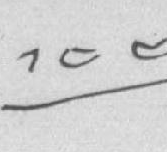༡༤༤
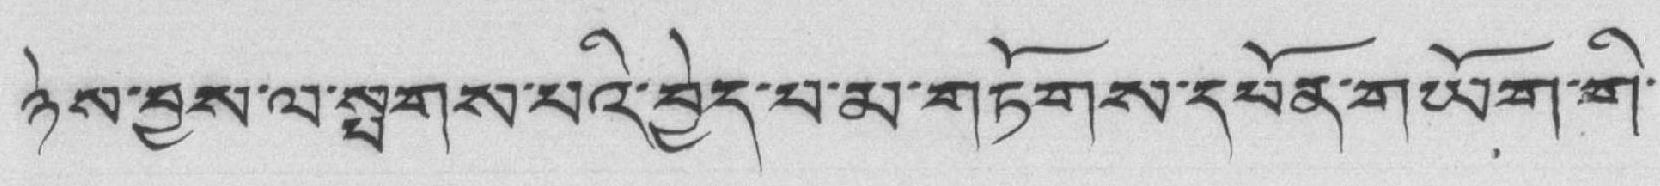ཉེས་བྱས་ལ་སྤགས་པའི་བྱེད་པ་མ་གཏོགས་དཔོན་གཡོག་གི་
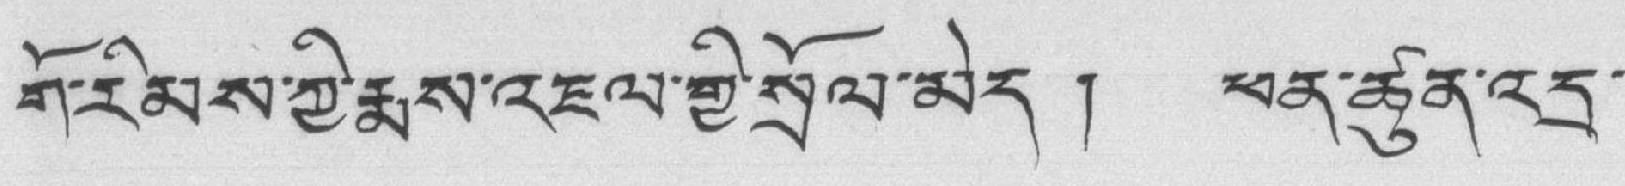གོ་རིམས་ཀྱི་རྨས་འཇལ་གྱི་སྲོལ་མེད ། ཕན་ཚུན་འདྲ་
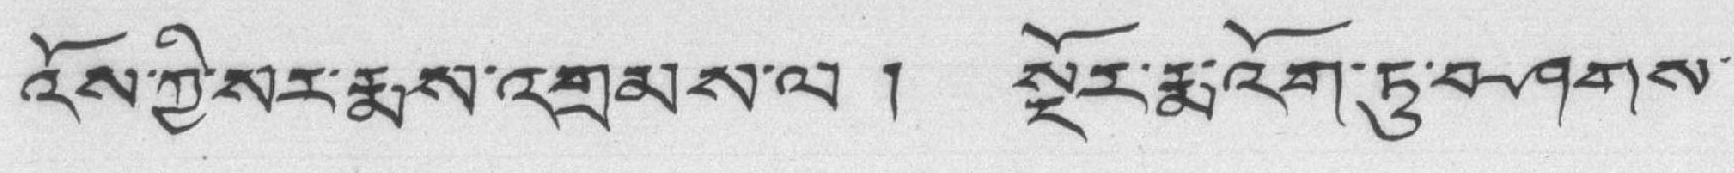འོས་ཀྱི་སར་རྨས་འགྲམས་ལ ། སྔོར་རྨ་འོག་ཏུ་བཤགས་
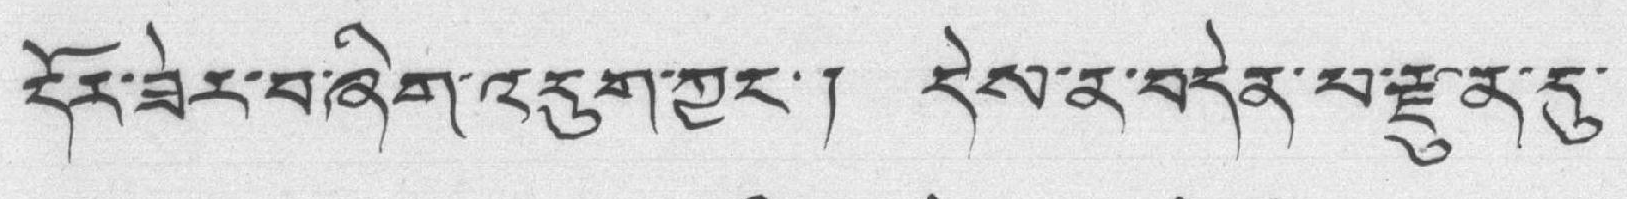དོར་ཟེར་བ་ཞིག་འདུག་ཀྱང་། དེས་ན་བདེན་པ་རྫུན་དུ་
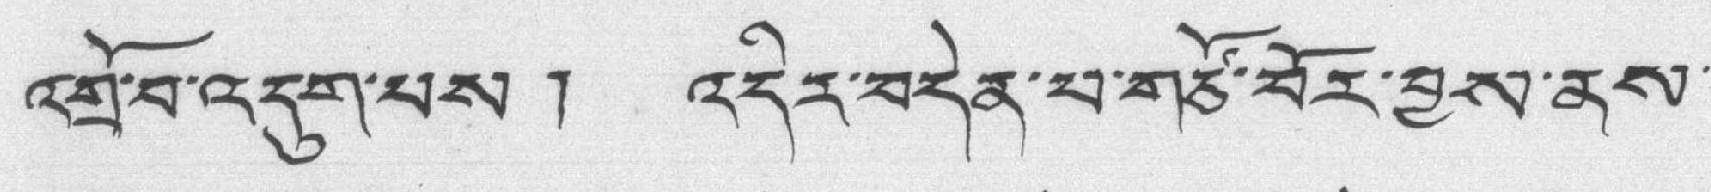འགྲོ་བ་འདུག་པས ། འདིར་བདེན་པ་གཙོ་བོར་བྱས་ནས་
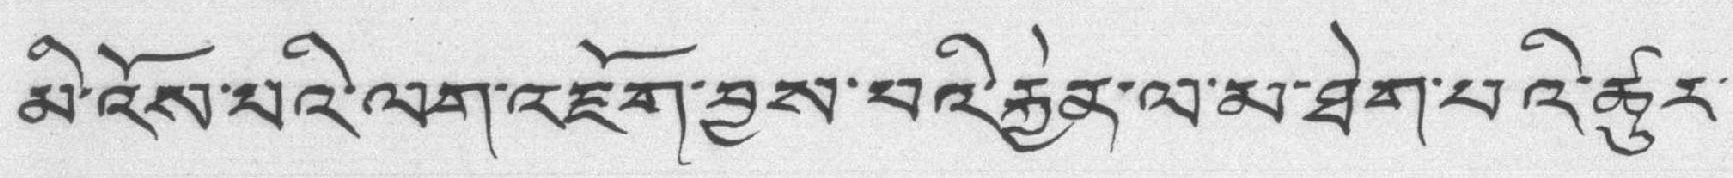མི་འོས་པའི་ལག་འཇོག་བྱས་པའི་རྐྱེན་ལ་མ་ཐེག་པའི་ཚུར་
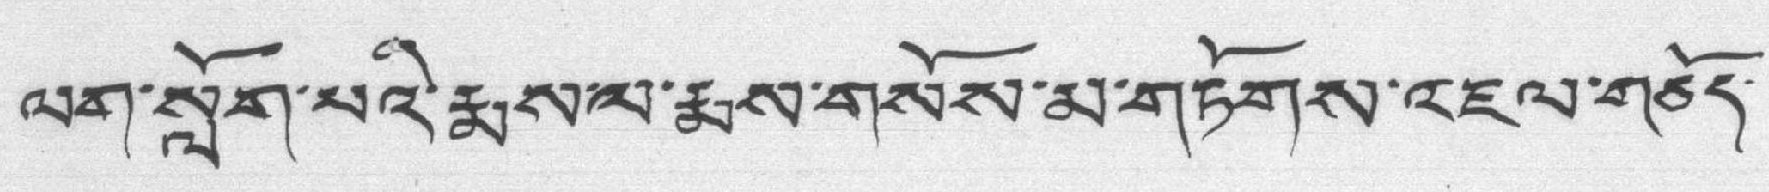ལག་སློག་པའི་རྨས་ལ་རྨས་གསོས་མ་གཏོགས་འཇལ་གཅོད་
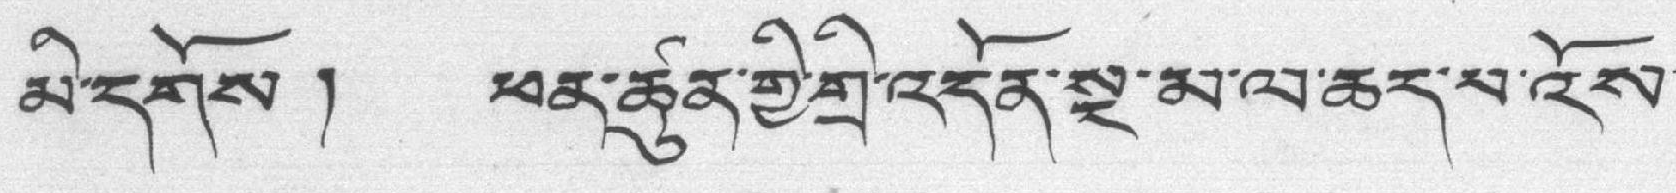མི་དགོས ། ཕན་ཚུན་གྱི་གྲི་འདོན་སྔ་མ་ལ་ཆད་པ་འོས་
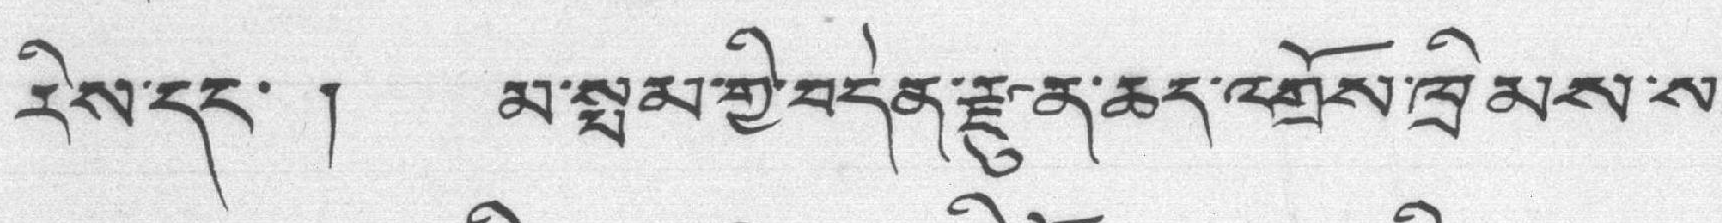རིས་དང་ ། མ་སྤམ་གྱི་བདེན་རྫུན་ཆད་འགྲོས་ཁྲིམས་ས་
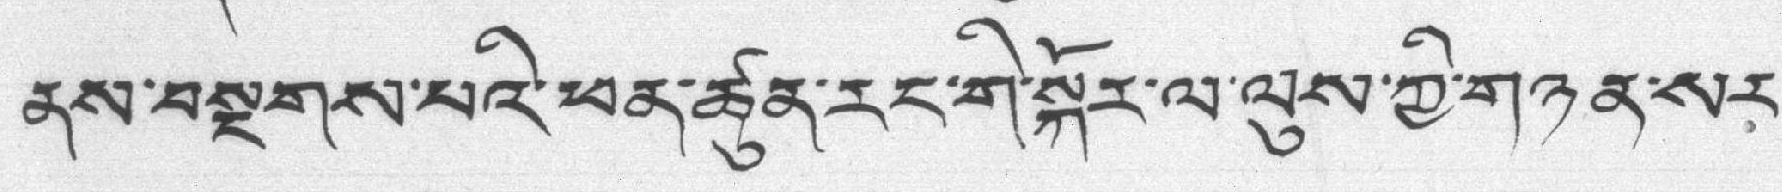ནས་བསྔགས་པའི་ཕན་ཚུན་རང་གི་སྐོར་ལ་ལུས་ཀྱི་གཉན་སར་
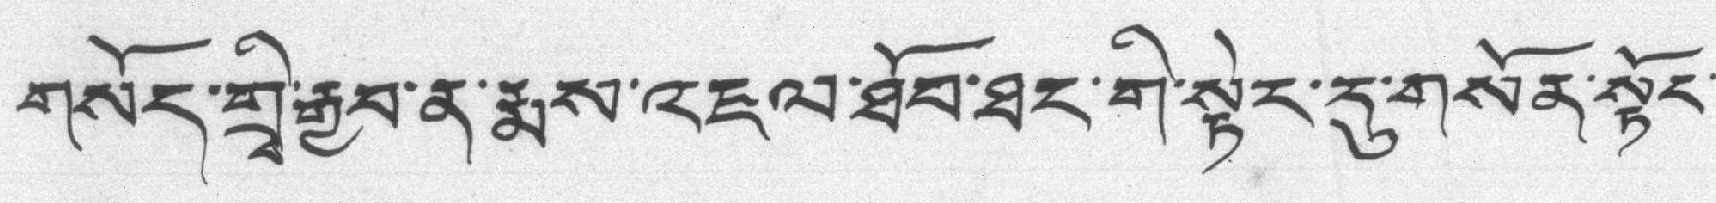གསོད་གྲྭི་རྒྱབ་ན་རྨས་འཇལ་ཐོབ་ཐང་གི་སྟེང་དུ་གསོན་སྟོང་
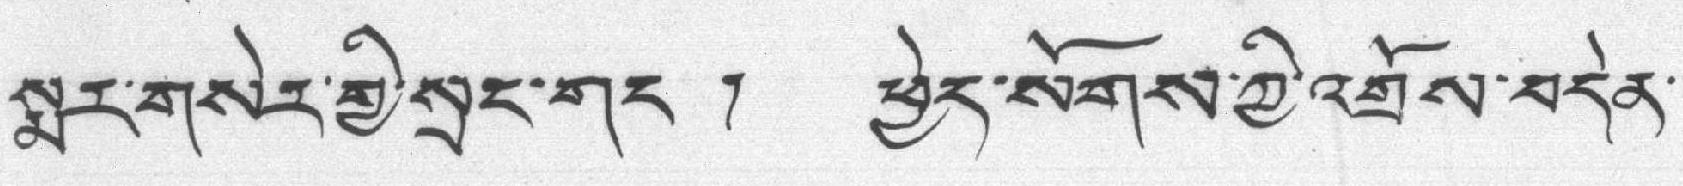སྨར་གསེར་གྱི་སྲང་གང ། ཕྱེད་སོགས་ཀྱི་འགྲོས་བདེན་
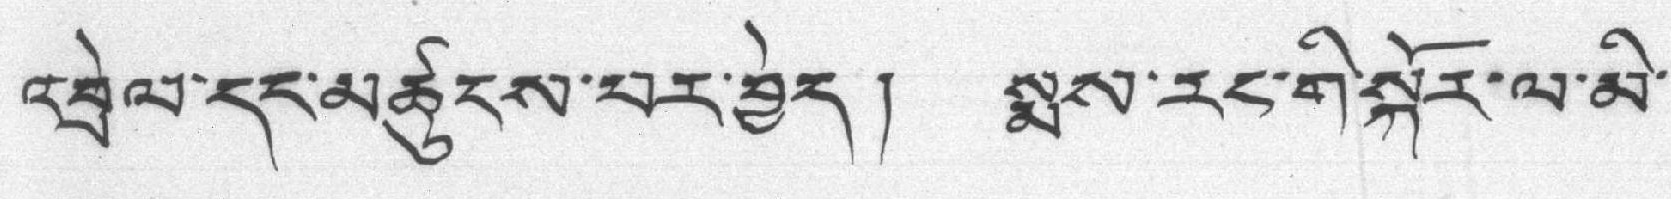འབྲེལ་དང་མཚུངས་པར་བྱེད། སྨས་རང་གི་སྐོར་ལ་མི་
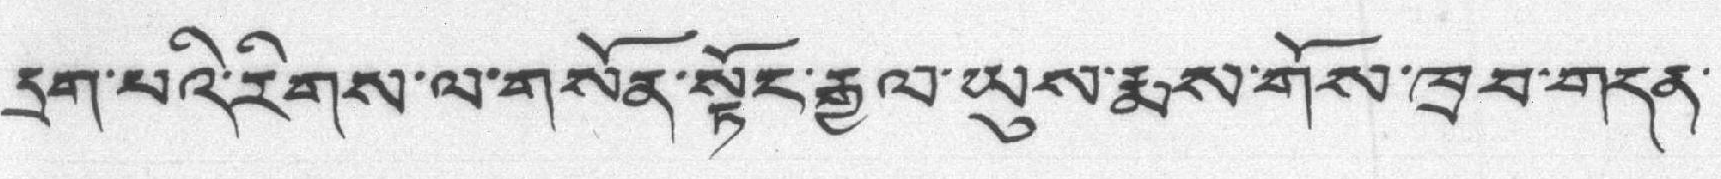དྲུག་པའི་རིགས་ལ་གསོན་སྟོང་རྒྱལ་ཡུས་རྨས་གོས་ཁྲབ་གདན་
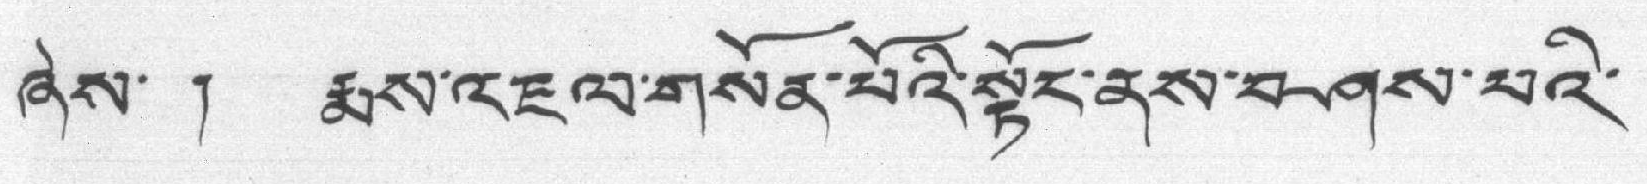ཞེས་ ། རྨས་འཇལ་གསོན་པོའི་སྟོང་ནས་བཤས་པའི་
